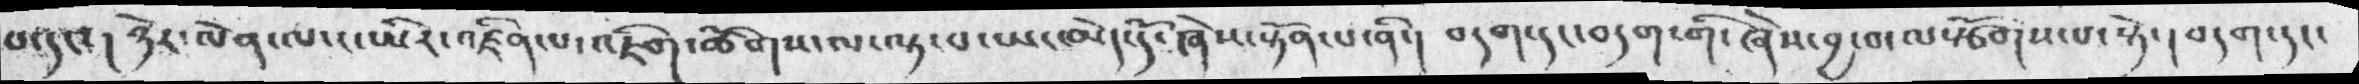པ་དང་། ཉེར་ལེན་ལ་ང་ཡིར་འཛིན་པ་འཇིག་ཚོགས་ལ་ལྟ་བ་ཡང་མེད་དོ་ཞེས་སྟོན་པ་ནི་།  བདག་དང་བདག་གི་ཞེས་བྱ་བ་ལསྩོགས་པ་སྟེ་།  བདག་དང་
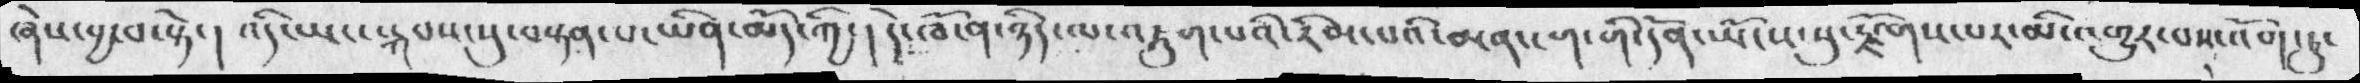ཞེས་བྱ་བ་སྟེ་།  འདི་ཡང་སྐབས་སུ་བསྟན་པ་ཡིན་མོད་ཀྱི་། དེ་ཁོ་ན་ཉིད་ལ་འཇུག་པའི་རིམ་པའི་མན་ངག་གི་དོན་ཡོངས་སུ་རྫོགས་པར་མི་འགྱུར་བས་འོག་ཏུ
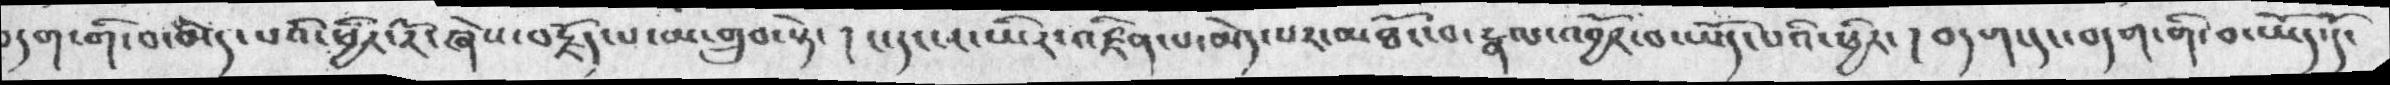བདག་གི་བ་མེད་པའི་ཕྱིར་རོ་ཞེས་བརྗོད་པ་མ་གྲུབ་སྟེ་ ། ང་དངས་ཡིར་འཛིན་པ་མེད་པར་མཐོང་བ་རྣལ་འབྱོར་བ་ཡོད་པའི་ཕྱིར་ ། བདག་དང་བདག་གི་བ་ཡོད་དོ་
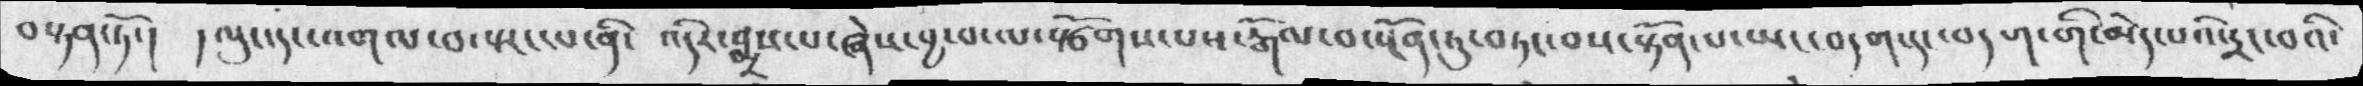བསྟན་ཏོ་།  །ལུང་དང་འགལ་བ་སྤང་པ་ནི་  འདིར་སྨྲས་པ་ཞེས་བྱ་བ་ལསཙོགས་པས་རྒོལ་བ་སྔོན་ཏུ་བཏང་པས་སྟོན་པ་ཡང་བདག་དང་བདག་གི་མེད་པའའི་དྲང་བའི་
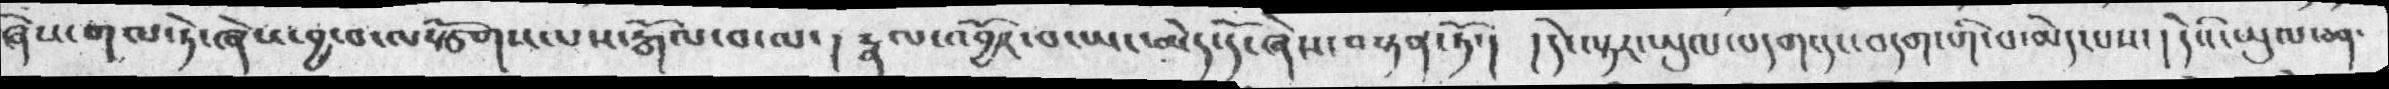ཞེས་གལ་ཏེ་ཞེས་བྱ་བ་ལསྩོགས་པས་རྒོལ་བ་ལ་  ། རྣལ་འབྱོར་བ་ཡང་མེད་དོ་ཞེས་བསྟན་ཏོ་།   །དེ་ལྟར་ཡུལ་བདག་དང་བདག་གི་བ་མེད་པས་   ། དེའི་ཡུལ་ཅན་
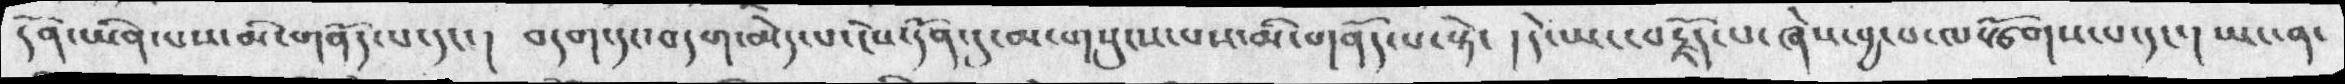དོན་ཡིན་པས་མི་གནོད་པ་དང་ ། བདག་དང་བདག་མེད་པ་ངེས་དོན་དུ་མ་གསུངས་པས་མི་གནོད་པ་སྟེ་  ། དེ་ཡང་བརྗོད་པ་ཞེས་བྱ་བ་ལསྩོགས་པ་དང་ ། ཡང་ན་
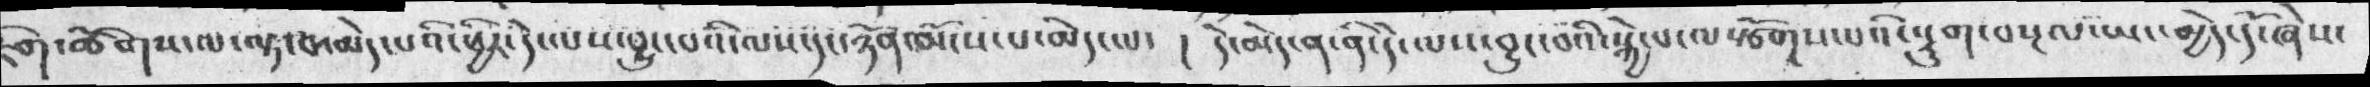ཇིག་ཚོགས་ལ་ལྟ་བ་མེད་པའི་ཕྱིར་དེ་ལས་བྱུང་པའི་ལས་དང་ཉོན་མོངས་པ་མེད་ལ་   ། དེ་མེད་ན་ནི་དེ་ལས་བྱུང་བའི་སྐྱེ་པ་ལསྩོགས་པའི་དསྡུག་བསྔལ་ཡང་མྱེད་དོ་ཞེས་
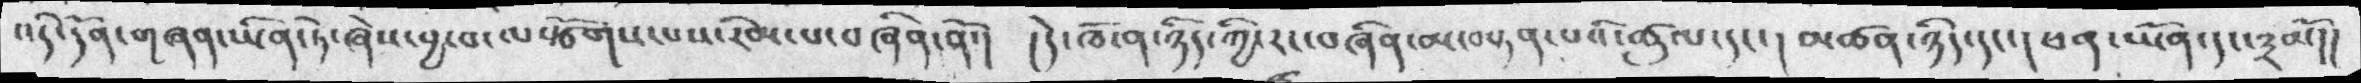འདི་དོན་གཞན་ཡིན་ཏེ་ཞེས་བྱ་བ་ལསྩོགས་པས་རིམ་པ་བཞིན་ནོ་།    ། དེ་ཁོ་ན་ཉིད་ཀྱི་རང་བཞིན་མ་བསྟན་པའི་ཚུལ་དང་། མཚན་ཉིད་དང་། ཕན་ཡོན་དང་༣མོ་།།
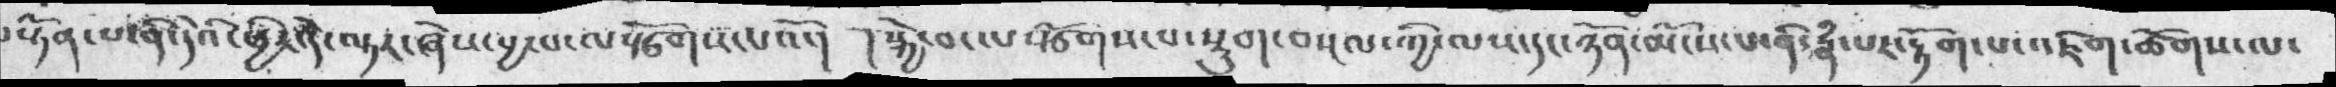བསྟོན་པ་ནི་དེའི་ཕྱིར་དེ་ལྟར་ཞེས་བྱ་བ་ལསྩོགས་པའོ་།   །སྐྱེ་བ་ལསྩོགས་པ་་སྡུག་བསྔལ་ཀྱི་ལས་དང་ཉོན་མོངས་པ་ནི་རྣཾ་པར་རྟོག་པ་འཇིག་ཚོགས་ལ་
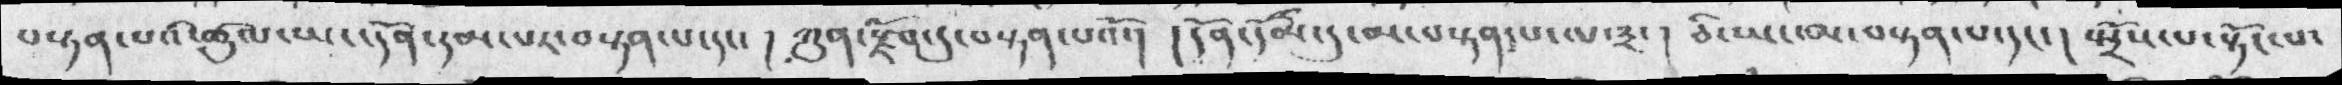བསྟན་པའི་ཚུལ་ཡང་དོན་དམ་པར་བསྟན་པ་དང་།  ཀུན་རྫོགདུ་བསྟན་པའོ་། །དོན་དདམ་དུ་མ་བསྟན་པ་ལ་༣་། ཅི་ཡང་མ་བསྟན་པ་དང་། སྤྲོས་པ་སྟོང་པ་
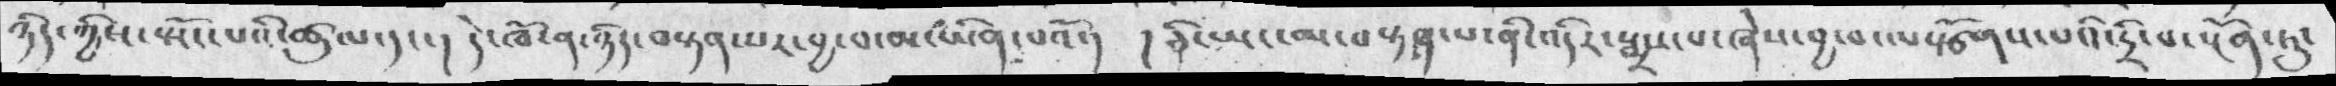ཉི་དཀྱིས་སྤོངས་བའི་ཚཡལ་དང་།  དེ་ཁོ་ན་ཉིད་བསྟན་པར་བྱ་བ་མ་ཡིན་པའོ་། །ཅི་ཡང་མ་བསྟན་པ་ནི་འདིར་སྨྲསཔ་ཞེས་བྱ་བ་ལསྩོགས་པའི་དྲི་བ་སྔོན་ཏུ་
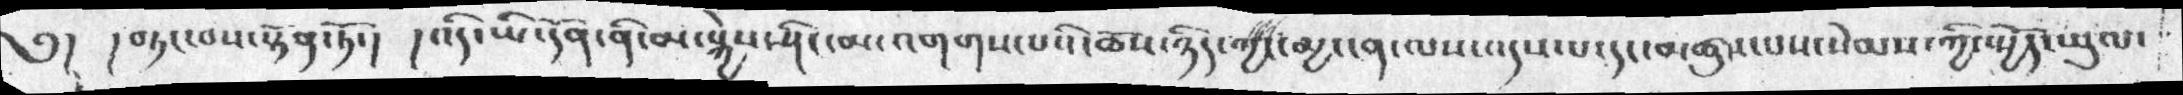༅།    ། བཏང་བས་སྟོན་ཏོ་།    །འདི་ཡི་དོན་ནི་མ་སྐྱེས་ཤིང་མ་འགགས་པའི་ཆོས་ཉིད་གྱང་མྱ་ངན་ལས་འདས་པ་དང་མཚུངས་པས་སེམས་ཀྱི་སྤྱོད་ཡུལ་
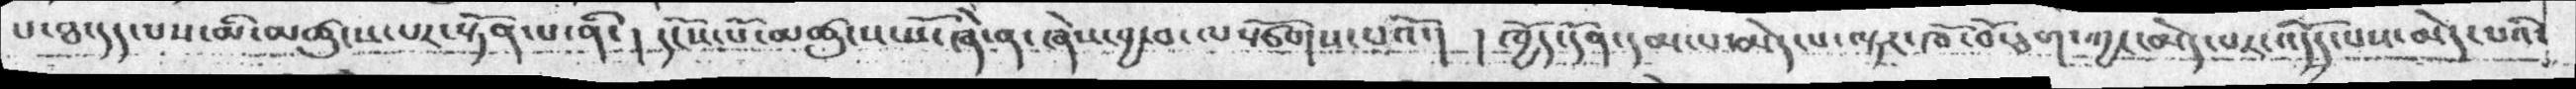པ་ཐ་དད་པས་མི་མཚུངས་པར་སྟོན་པ་ནི་།  དངོས་པོ་མཚུངས་སོ་ཞེ་ན་ཞེས་བྱ་བ་ལསྩོགས་པའོ་།  །ཁྱོད་དོན་དམ་པ་མེད་པ་ལྟར་ཁོ་བོ་ཅག་ཀྱང་མེད་པར་འདོད་པས་མེད་པའི་
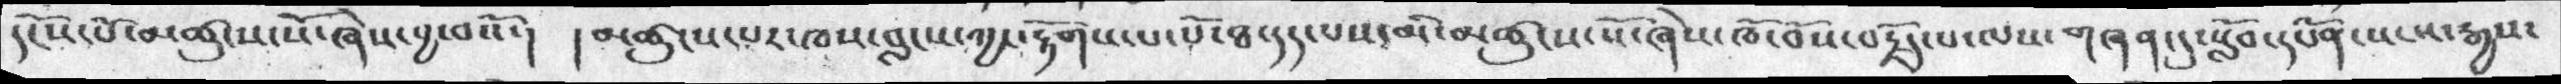དངོས་པ་མཚུངས་སོ་ཞེས་བྱ་བའོ་།  །མཚུངས་པར་ཁས་བླངས་ཀྱང་རྟོགས་པ་པོ་ཐ་དད་པས་མི་མཚུངས་སོ་ཞེས་ཁོ་བོས་བརྗོད་པ་ལས་གཞན་དུ་སློབ་དཔོན་སངས་རྒྱས་
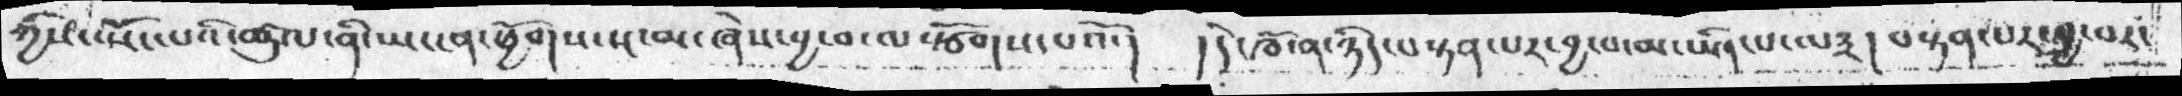ཀྱིས་སྤོང་པའི་ཚུལ་ནི་ཡང་ན་ཕྱོགས་སྔ་མ་ཞེས་བྱ་བ་ལསྩོགས་པའོ་།  །དེ་ཁོ་ན་ཉིད་བསྟན་པར་བྱ་བ་མ་ཡིན་པ་ལ༣། བསྟན་པར་བྱ་བར་
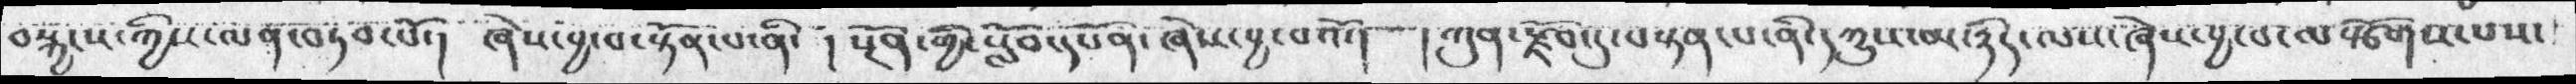བསྐྱངས་ཀྱིས་ལན་བཏབ་པོ་།  ཞེས་བྱ་བ་སྟོན་པ་ནི་ ། སྔོན་གྱི་སློབ་དཔོན་ཞེས་བྱ་བའོ་།   །ཀུན་རྫོབ་དུ་བསྟན་པ་ནི་དཀྱུས་མ་ཉིད་ལས་ཞེས་བྱ་བ་ལསྩོགས་པས་
